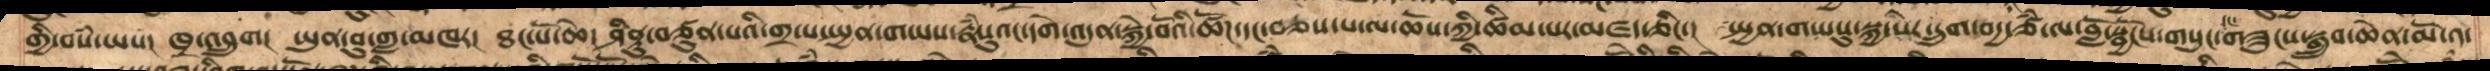གྱི་བསཾ་ཡས།  ཁྲ་འབྲུག། ཡུན་བུ་གླ་མཁར། ཐང་པོ་ཆེ། ཤིནུ་བཙུན་པའི་གྲ་པ་སྤྱན་གཡས་རྣཾསུའང་དགེ་འདུན་སྐྱེ་བོའི་ཚོཌ་དང་བཅས་པ་ལ་ཆོས་ཀྱི་ཚིམ་པར་མཛད་ཅིང་། སྤྱན་གཡསུ་སྐྱ་སེར་དྲུག་བདྱ་ཙཾ་ལ་བློ་སྦྱོངས་གསུང་དང་གཟུངས་སྒྲུབ་ཆེན་མོ་འ་
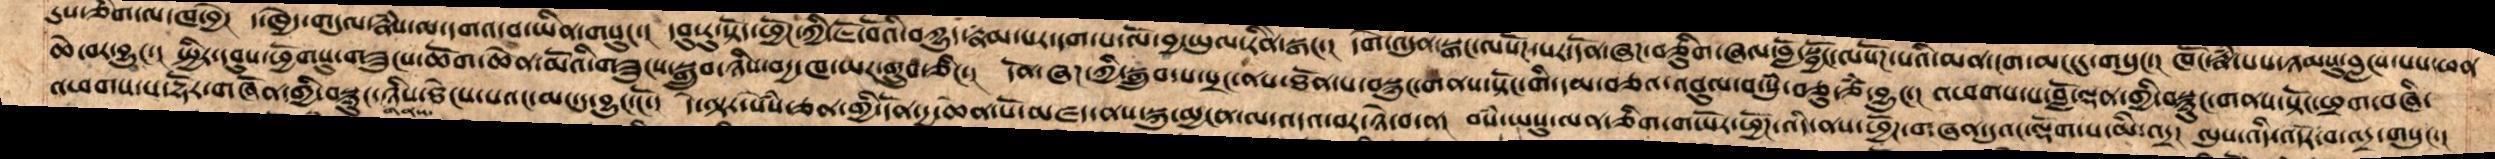ཆེ་བར་བྱུང་། སྤྱིར་དབུས་ཕྱོགསུ་གཟུངས་ཆོག་ཆེན་མོའི་གཟུངས་སྒྲུབ་ཉིས་བདྱ་ཁ་ཡར་གྲུབ་ཅིང་།  དོན་ཞཌ་ཀྱི་སྒྲུབ་པ་སྲང་ནས་ཐོན་པ་བསྙུང་གནས་སྟོང་གི་དམ་བཅའ་འབུལ་བ་སུཾ་བཅུ་ཙཾ་བྱུང་། འཕགས་པ་བློ་ལྡན་གྱི་བསྙུང་གནས་སྟོང་ཕྲག་བཞི་
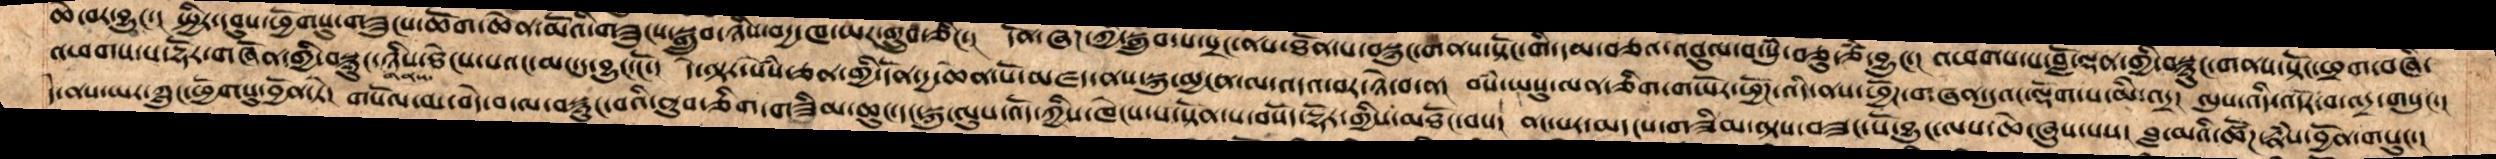འཕགས་པ་རྡོར་གཞོན་གྱི་བསྙུང་གནས་ཉིས་ཐེངས་པའང་མང་དུ་བྱུང་ངོ་།  དེ་ལྟར་སེཾས་ཅན་གྱི་དོན་དྱ་ཆེན་པོ་མཛད་ནས་སྐུ་མྱངན་ལ་འདའ་བར་ཉེ་བ་ན། བསཾ་ཡསུ་ལན་ཅིག་གཡོར་ཕྱོཌ་འདི་ནས་ཕྱོཌ་གཞན་དུའང་ལྡོག་པ་མི་འདྲ། ལུས་འདི་འདོར་བ་འདྲ་གསུང་།
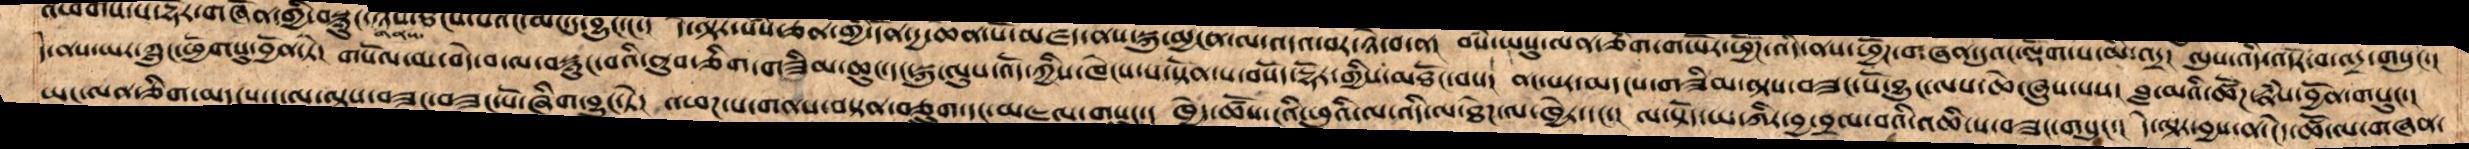དེ་ནས་ཡར་ཀླུང་ཕྱོགསུ་བྱོན་ཏེ། གསོལ་མ་བདེ་བ་ལ་བསྙུང་བའི་ནུབ་ཅིག་གཟིམ་ཆུང་དང་སྐུ་ལུས་འོད་ཀྱིས་ཁེངས་པ་སྟོན་པ་བསོད་རྡོར་གྱིས་མཐོང་བས། ནང་པར་མདངས་གཟིམ་ལྟས་བཟང་པོ་བྱུང་ལས་ཆེ་ཞུས་པས། བླ་མའི་ཚོཌ་རྣཾས་བྱོན་གསུང་།
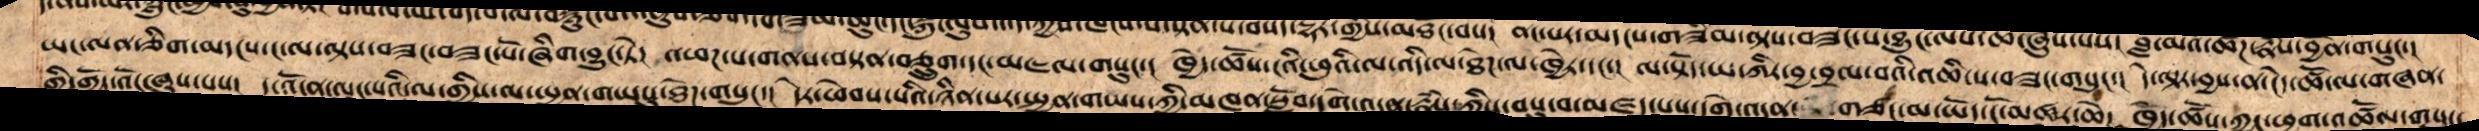ཡང་ལན་ཅིག་མདངས་ང་ལ་ལྟས་བཟང་བཟང་པོ་ཞིག་བྱུང་ཏེ།  འཕཌ་པ་གནས་བསྟན་བཅྲུག་དང་མཇལ་གསུང་། ཁྱེད་ཚོས་ངའི་ཕུའི་ལ་འདི་ལ་ཐེཌ་ལ་ཁྱེར་དང་།  ལ་སྟོད་ཡ་ཀིར་བྱ་བྲལ་བའི་འཆི་ས་བཟང་གསུང་། དེ་ལྟར་བྱས་ན་ངེད་ཚོ་ལ་གཞན་
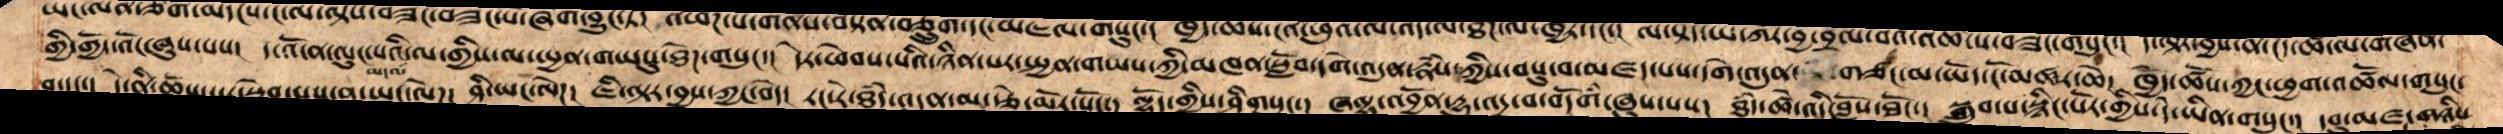གྱི་གྱོད་འོང་ཞུས་པས། ད་འོ་ན་ལུང་པའི་མདའ་ལ་གྱིས་ལ་སྤྱན་གཡསུ་ཐེཌ་གསུང་། དེར་ཕེབས་པའི་ཉིན་པར་སྤྱན་གཡས་ཀྱི་མཁན་སློབ་དགེ་འདུན་རྣཾས་ཀྱིས་བསུ་བ་མཛད་པས་དགེ་འདུན་གཙང་མ་ཡོད་ངོ་མཚར་ཆེ། ཁྱེད་ཚོས་ཀྱང་ཕྱག་འཚོལ་གསུང་
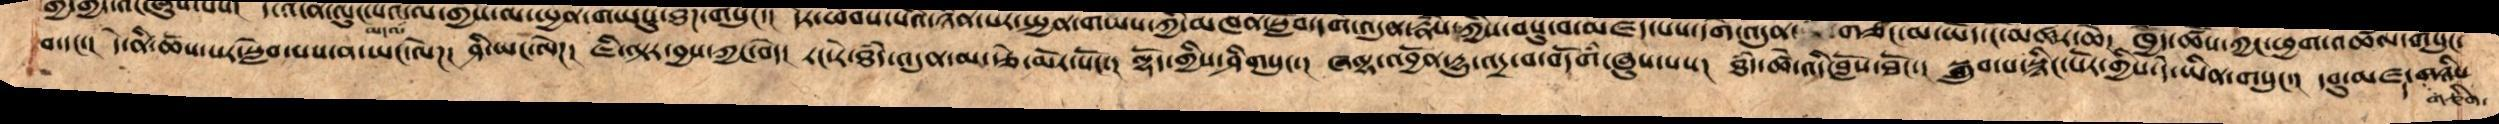བ་དང་། དེ་ནི་ཆོས་སར་སླེབ་པས་ན་ཡང་ལེཌ། ཤི་ཡང་ལེཌ། ཇི་ལྟར་བྱས་ཀྱང་བདེ། རང་རེ་ཐཾད་འདུན་མ་རྩེ་མོར་སོང་། ལྷོད་གྱིས་ཤིགསུང་། ཞལྷ་འབྱོན་དྱུ་འདྲ་བ་བདོགཾ་ཞུས་པས། ཐཾད་ཚེ་འདི་བློས་ཐོང་། སྒྲུབ་པ་སྙིང་པོར་གྱིས་དེ་ཡིན་གསུང་། དབུ་མཛད་གཅིག་གཉིས་
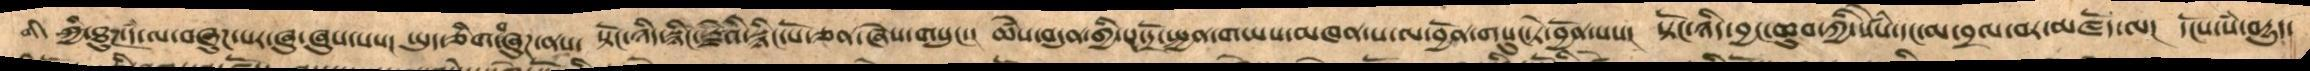གི་ཀྱི་ཐུཌ་དཾ་ལ་བཞུཌ་པར་ཞུ་ཞུས་པས། ཡུག་ཅིག་བཞུཌ་ནས། སྟོང་ཉིད་སྙིང་རྗེའི་སྙིང་པོ་ཅན་ཞེས་གསུང་། ཚེས་བདུན་གྱི་སྔ་དྲོ་སྤྱན་གཡས་མཁན་པ་ལ་བྱོན་གསུང་ཏེ་བྱོན་པས། སྟོང་ཉིད་བྱང་ཆུབ་ཀྱི་སེཾས་དང་མ་བྲལ་བར་མཛོད་ལ། དངོས་སཾ་བདྱུད་
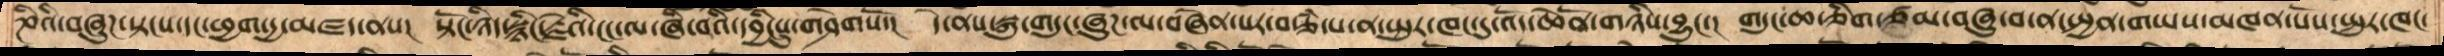ཎིའི་བཞུཌ་སྟངས་དང་ཕྱག་དྱ་མཛད་ནས།  སྟོང་ཉིད་སྙིང་རྗེའི་ངང་ལ་ཞི་བའི་དབྱིངསུ་གཤེགསོ་།  དེ་ནས་སྐུ་གདུང་ཞུཌ་ལ་བཞེན་པར་བརྩཾ་པ་ན་སྤུར་ཁང་དུ་འོད་ཆེནོ་གཉིས་བྱུང་།  གདུང་ཆ་ཅིག་ཙམ་བཞུ་བ་ན་སྤྱན་གཡས་མཁན་པོས་སྤུར་ཁང་
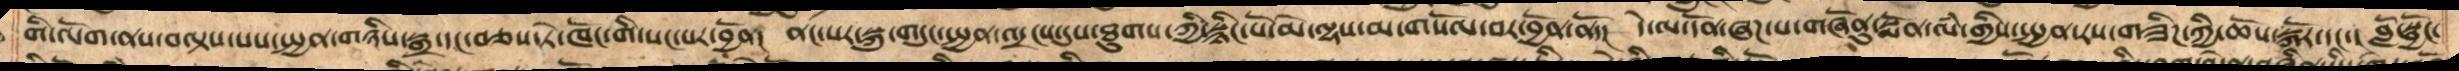གི་ལོག་ནས་བལྟས་པས་སྤྱན་གཉིས་སྒྲ་དང་བཅས་ཏེ་ཁོང་གི་སང་པར་བྱོན།   ནང་སར་སྐུ་གདུང་སྤྱན་འདྲངས་དུས་ཐུགས་ཀྱི་སྙིང་པོ་མེ་ལྷས་མ་གསོལ་བར་བྱོན་ནོ་།  དེ་ལ་དོན་ཞཌ་པ་གཞོནུ་སྨོན་ལཾ་གྱིས་སྤྱན་རས་གཟིཌ་ཀྱི་ཆོས་སྐོར་དང་།   བློ་སྦྱོང་
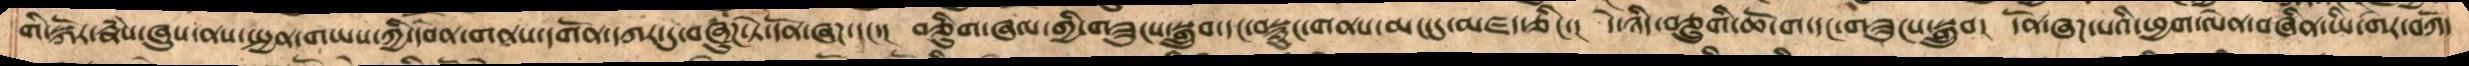གི་སྐོར་རྣཾས་ཞུས་ནས་སྤྱན་གཡས་ཀྱི་དབེན་གནས་དགོན་དཀར་དུ་བཞུཌ་ཏེ་དོན་ཞཌ་དང་།  བཅིུག་ཞལ་གྱི་གཟུངས་སྒྲུབ་དང་བསྙུང་གནས་མང་དུ་མཛད་ཅིང་།  དེ་ཉིད་བཅྲུགི་ཆོ་ག་དང་གཟུངས་སྒྲུབ།  དོན་ཞཌ་པའི་ཕྱག་ལེན་བཞིན་ཡི་གེར་བཀོད
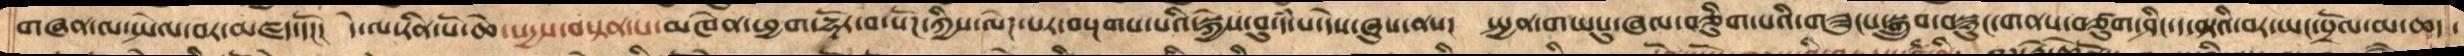གཞན་ལ་སྤེལ་བར་མཛད་དོ།  དེ་ལ་རིན་པོ་ཆེ་སདྱས་བསྟན་པ་མཁེན་ཕྱག་དྷོར་བ་སོཌ་ཀྱིས་ལེཌ་པར་བསྔགས་པའི་སྐྱེས་བུ་དཾ་པ་དེས་ཞུས་ནས།  སྤྱན་གཡསུ་ཞལ་བཅིུག་པའི་གཟུངས་སྒྲུབ་བསྙུང་གནས་བཙུག་ཤིང་ད་ལྟའི་བར་ཡང་བྲོལ་མ་ཆད་
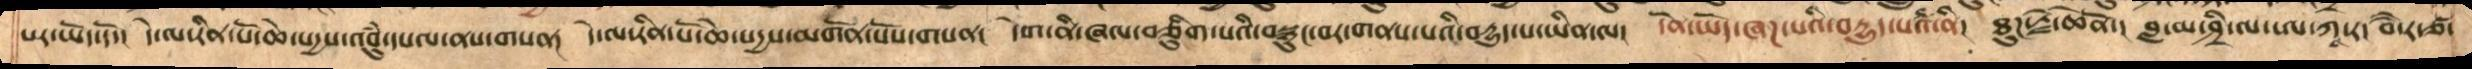པར་ཡོད་དོ།  དེ་ལ་རིན་པོ་ཆེ་སདྱས་འབུཾ་དཔལ་ནས་གསན།  དེ་ལ་རིན་པོ་ཆེ་སདྱས་མགོན་པོས་གསན།  དེག་ནི་ཞལ་བཅིུག་པའི་བསྙུང་བར་གནས་པའི་བདྱུད་པ་ཡིན་ལ།  དོན་ཡོད་ཞཌ་པའི་བདྱུད་པའ་ནི།  ཐུཌ་རྗེ་ཆེནོ་།  བླ་མ་ཤྲི་ལ་ཨ་ཀཱ་ར།  བཻ་རོ་ཙ་
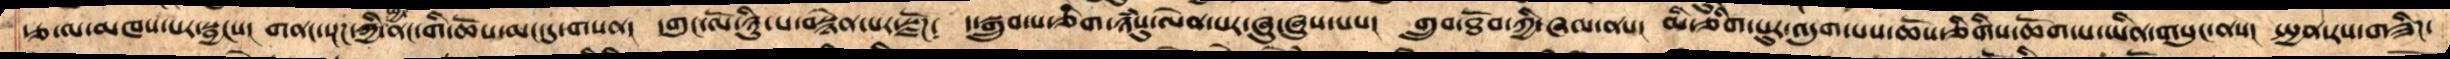རྩ་ལ་མཁས་པར་སྦྱངས། གནང་སྔཌ་ཀྱི་ཕྱི་ནང་གི་ཆོས་མང་དུ་གསན། དགུང་ལོ་ཉིུ་པ་ལ་བསྙེན་པར་སྫོཌ། ད་སྒྲུབ་པ་ཅིག་ཉཾསུ་ལེན་པར་ཞུ་ཞུས་པས། གྲུབ་ཐོབ་ཀྱི་ཞལ་ནས། མི་ཅིག་པུར་འདུག་པས་ཆོས་ཅིགིས་ཆོག་པ་ཡིན་གསུང་ནས། སྤྱན་རས་གཟིཌ་
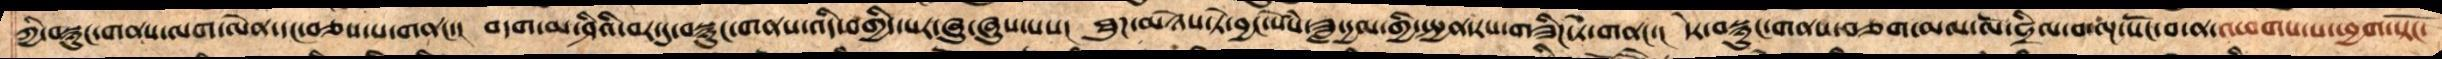ཀྱི་བསྙུང་གནས་ལག་ལེན་དང་བཅས་པ་གནང་།  བདག་མ་ཤི་བར་དུ་བསྙུང་གནས་འདི་བགྱིད་པར་ཞུ་ཞུས་པས།  ཐུཌ་མཉེས་ཏེ་བྱང་སེཾས་ཟླ་དྱལ་གྱི་སྤྱན་རས་གཟིཌ་ཏེ་གནང་། དེར་བསྙུང་གནས་བཅག་མལ་ལོ་ཧྲིལ་བ་ལྔ་སོང་བ་ན་འཕགས་པ་ཕྱག་སྟོང་
